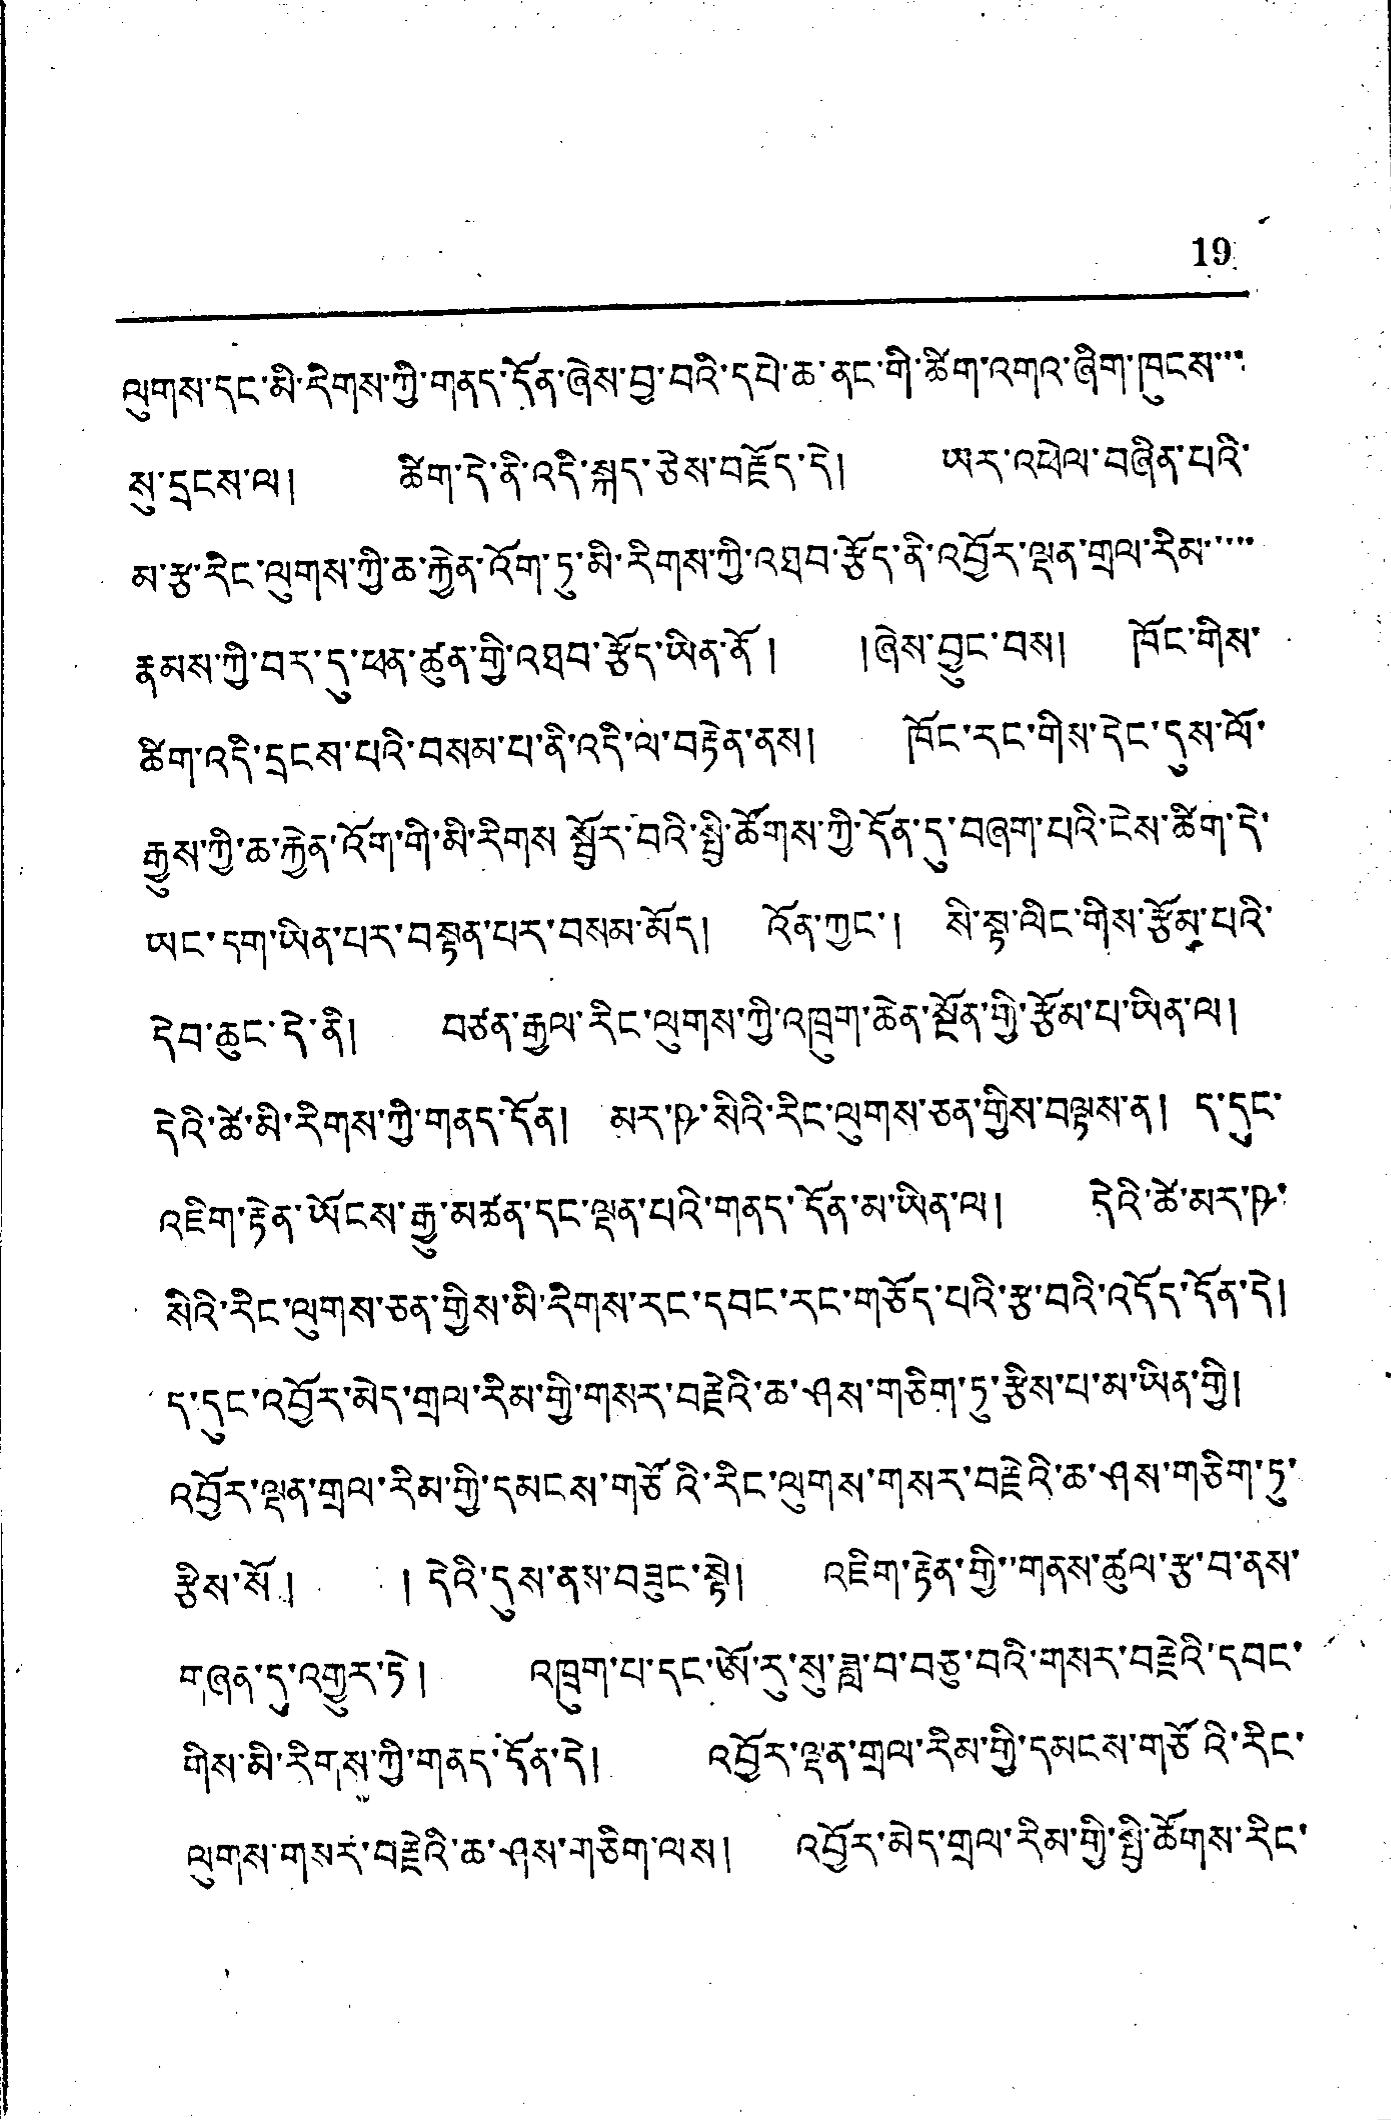19
ལུགས་དང་མི་རིགས་ཀྱི་གནད་དོན་ཞེས་བྱ་བའི་དཔེ་ཆ་ནང་གི་ཚིག་འགའ་ཞིག་ཁུངས་་་
སུ་དྲངས་ལ། ཚིག་དེ་ནི་འདི་སྐད་ཅེས་བརྗོད་དེ། ཡར་འཕེལ་བཞིན་པའི་
མ་རྩ་རིང་ལུགས་ཀྱི་ཆ་རྐྱེན་འོག་ཏུ་མི་རིགས་ཀྱི་འཐབ་རྩོད་ནི་འབྱོར་ལྡན་གྲལ་རིམ་་་་་
རྣམས་ཀྱི་བར་དུ་ཕན་ཚུན་གྱི་འཐབ་རྩོད་ཡིན་ནོ ། །ཞེས་བྱུང་བས། ཁོང་གིས་
ཚིག་འདི་དྲངས་པའི་བསམ་པ་ནི་འདི་ལ་བརྟེན་ནས། ཁོང་རང་གིས་དེང་དུས་ལོ་
རྒྱུས་ཀྱི་ཆ་རྐྱེན་འོག་གི་མི་རིགས་སྦྱོར་བའི་སྤྱི་ཚོགས་ཀྱི་དོན་དུ་བཞག་པའི་ངེས་ཚིག་དེ་
ཡང་དག་ཡིན་པར་བསྟན་པར་བསམ་མོད། འོན་ཀྱང་། སི་སྟ་ལིང་གིས་རྩོམ་པའི་
དེབ་ཆུང་དེ་ནི། བཙན་རྒྱལ་རིང་ལུགས་ཀྱི་འཁྲུག་ཆེན་སྔོན་གྱི་རྩོམ་པ་ཡིན་ལ།
དེའི་ཚེ་མི་རིགས་ཀྱི་གནད་དོན། མར་ཥ་སིའི་རིང་ལུགས་ཅན་གྱིས་བལྟས་ན། ད་དུང་
འཇིག་རྟེན་ཡོངས་རྒྱུ་མཚན་དང་ལྡན་པའི་གནད་དོན་མ་ཡིན་ལ། དེའི་ཚེ་མར་ཥ་
སིའི་རིང་ལུགས་ཅན་གྱིས་མི་རིགས་རང་དབང་རང་གཅོད་པའི་རྩ་བའི་འདོད་དོན་དེ།
ད་དུང་འབྱོར་མེད་གྲལ་རིམ་གྱི་གསར་བརྗེའི་ཆ་ཤས་གཅིག་ཏུ་རྩིས་པ་མ་ཡིན་གྱི།
འབྱོར་ལྡན་གྲལ་རིམ་གྱི་དམངས་གཙོའི་རིང་ལུགས་གསར་བརྗེའི་ཆ་ཤས་གཅིག་ཏུ་
རྩིས་སོ ། ། དེའི་དུས་ནས་བཟུང་སྟེ། འཇིག་རྟེན་གྱི་་གནས་ཙུལ་རྩ་བ་ནས་
གཞན་དུ་འགྱུར་ཏེ། འཁྲུག་པ་དང་ཨོ་རུ་སུ་ཟླ་བ་བཅུ་བའི་གསར་བརྗེའི་དབང་
གིས་མི་རིགས་ཀྱི་གནད་དོན་དེ། འབྱོར་ལྡན་གྲལ་རིམ་གྱི་དམངས་གཙོའི་རིང་
ལུགས་གསར་བརྗེའི་ཆ་ཤས་གཅིག་ལས། འབྱོར་མེད་གྲལ་རིམ་གྱི་སྤྱི་ཚོགས་རིང་
